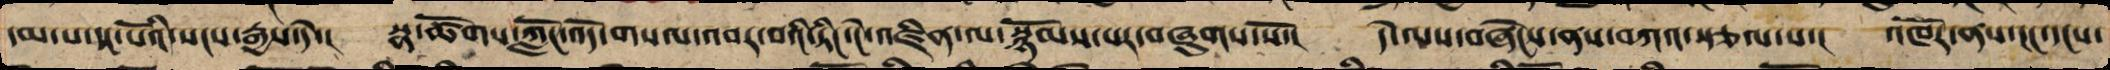དམ་པ་དང་པོའི་སངས་རྒྱས་དེ་། སྣ་ཚོགས་ཀློང་འོད་གསལ་འབར་བའི་ཏིང་ངེ་འཛིན་ལ་སྙོམས་པར་བཞུགས་སོ་། དེ་ལས་བཞེངས་ནས་བཀའ་སྩལ་པ་། འཁོར་ནས་ངང་དངས་
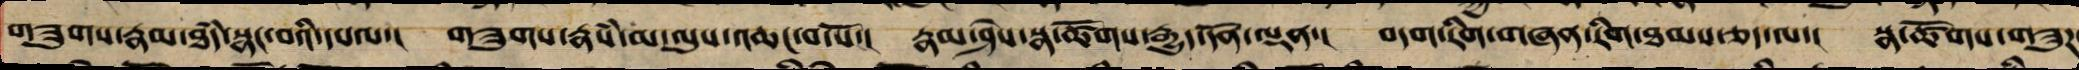གཟུགས་རྣམ་ཐཾས་སྣང་བའི་དཔལ་། གཟུགས་རྣཾས་མ་ལུས་འཆང་བ་པོ་། རྣམ་ཤེས་སྣ་ཚོགས་རྒྱུད་དོན་ལྡན་། བདག་རིག་གཞན་རིག་ཐམས་ཅད་ལ་། སྣ་ཚོགས་གཟུཌ
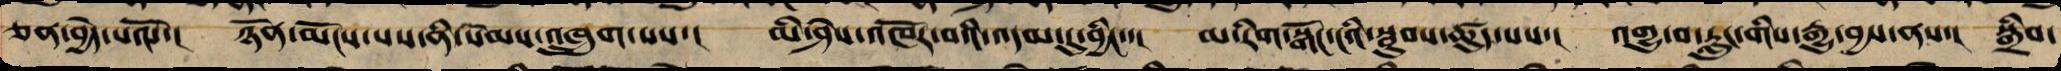ཅན་བྱེད་པའོ་་། ཉོན་མོངས་པས་ནི་སེམས་འཁྲུགས་པས་། མི་ཤེས་འཁོར་བའི་འདམ་དུ་བྱིང་་། མ་རིག་སྒོང་ངའི་སྦུབས་ཚུད་པས་། འགྱུ་བ་རླུང་གིས་རྒྱུ་བྱས་ནས་། སྒྲིབ་
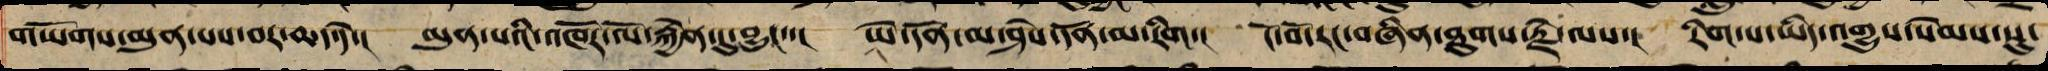གཡོགས་མུན་པས་བར་ཆད་དེ་། མུན་པའི་འཁོར་ལོ་རྐྱེན་དུ་བྱུང་་། ཡེ་དོན་མ་ཤེས་དོན་མ་རིག་། ངོ་བོ་རང་བཞིན་ཐུགས་རྗེ་ལས་། རིག་པ་ཡིད་འགྱུས་སེམས་སུ་
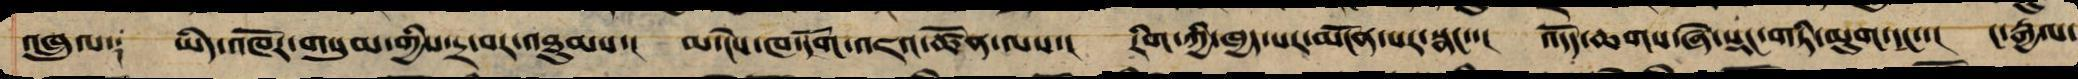འཁྲུལ༑ ཡིད་འཁོར་གསུམ་གྱིས་དྲ་བར་འཐུམས་། མ་ངེས་ཁ་དོག་འཇའ་ཚོན་ལས་། རིགས་ཀྱི་ཁྱད་པར་མངོན་པར་སྣང་་། འདོད་ཆགས་ཞེ་སྡང་གཏི་མུག་དང་་། ང་རྒྱལ་
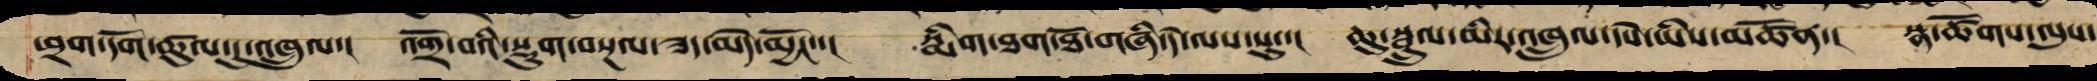ཕྲག་དོག་ཚུལ་དུ་འཁྲུལ་། འགྲོ་བའི་སྡུག་བསྔལ་ཟད་མེད་མྱོང་་། སྨིག་ཐག་ཐོ་གཞི་དེ་ལས་སུ་་། ཆུ་སྦྲུལ་མིར་འཁྲུལ་དཔེ་ཡིས་མཚོན་། སྣ་ཚོགས་ལུས་
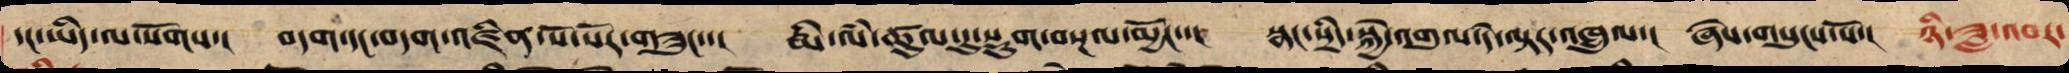དང་ཡིད་ལ་སོགས་། བདག་དང་བདག་འཛིན་སོ་སོར་གཟུང་་། རྨི་ལམ་ཚུལ་དུ་སྡུག་བསྔལ་མྱོང་་། སྣང་སྲིད་སྐྱེ་འགུལ་དེ་ལྟར་འཁྲུལ་། ཞེས་གསུངས་སོ་། ཉི་ཟླ་འབར་
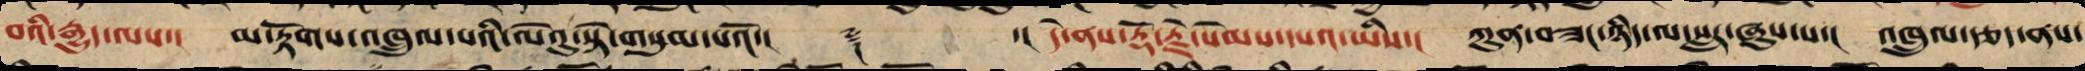བའི་རྒྱུད་ལས་། མ་རྟོགས་འཁྲུལ་པའི་ལེའུ་སྟེ་གསུམ་པའོ་།། ༈ ་། དེ་ནས་རྡོ་རྗེ་སེམས་དཔའ་ཡིས་། ཀུན་བཟང་ཉིད་ལ་སླར་ཞུས་པ་། འཁྲུལ་རྩད་ནས་
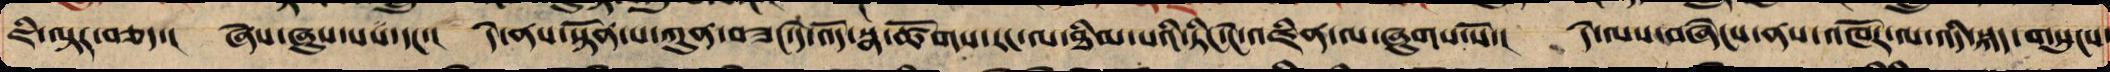ཇི་ལྟར་བཅད་། ཞེས་ཞུས་པས་དང་། དེ་ནས་སྟོན་པ་ཀུན་བཟང་དེ་འོད་སྣ་ཚོགས་རང་ལ་ཐིམ་པའི་ཏིང་ངེ་འཛིན་ལ་ཞུགས་སོ་། དེ་ལས་བཞེངས་ནས་འཁོར་ལ་འདི་སྐད་གསུངས་
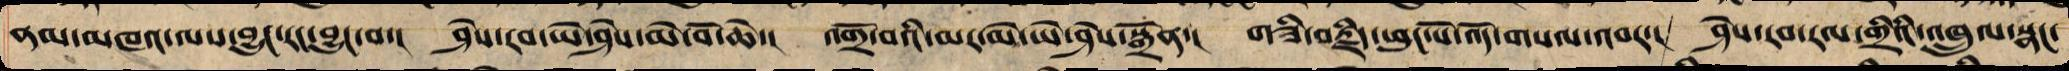ནམ་མཁའ་ལས་བྱུང་རང་བྱུང་བ་། ཤེས་རབ་ཡེ་ཤེས་མི་བོ་ཆེ་། འགྲོ་བའི་མར་མེ་ཡེ་ཤེས་སྒྲོན་། གཟི་བརྗིད་ཕུང་པོ་འོད་གསལ་འབར་། ཤེས་རབ་རལ་གྲིའི་འཁྲུལ་སྣང་
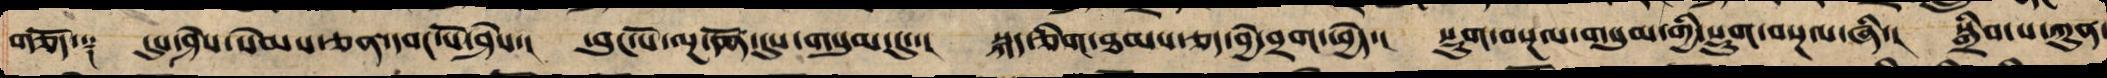གཅོད། །ངུས་ཤེས་སེམས་ཅན་དབང་པོ་ཤེས། །ཕུང་པོ་ལྔ་པོ་དུས་གསུམ་དུ། །སྐད་ཅིག་ཐམས་ཅད་བྱེ་བྲག་ཕྱེད། །སྡུག་བསྔལ་གསུམ་གྱི་སྡུག་བསྔལ་ཞི། །སྒྲིབ་པ་ཀུན་
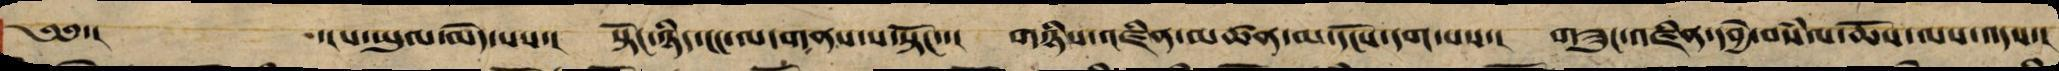༄༅་། ་།པ་ཡུལ་མེད་པས་། སྟོང་ཉིད་ངང་ལ་གནས་པ་སྟོང་་། གཉིས་འཛིན་མཚན་མ་དངོས་དག་པས་། གཟུང་འཛིན་དབྱེ་བསᨑཔ་པ་ཆོས་ལས་འདས་།
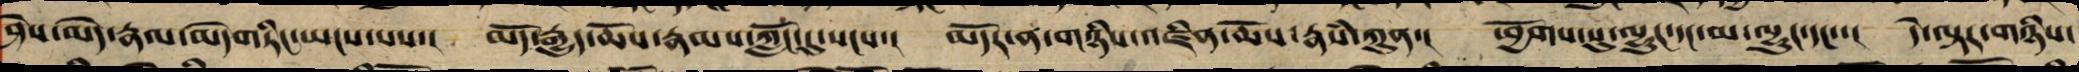ཤེས་མེད་རྣལ་མེད་གཏིང་ཡངས་པས་། མདོ་རྒྱུད་ཆོས་རྣམས་ཀློང་དུ་སངས་། མདོར་ན་གཉིས་འཛིན་ཆོས་རྣཾས་ཀུན་། ཕྱོགས་སུ་ལྷུང་དང་མ་ལྷུང་དང་་། དེ་ལྟར་གཉིས་
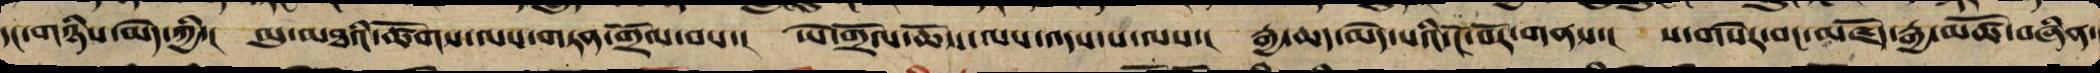དང་གཉིས་མེད་ཀྱི་། མུ་མཐའི་ཚོགས་ལས་གཏན་གྲོལ་བས་། ཡེ་གྲོལ་ཆོས་ལས་འདས་པ་ལས་། རྒྱ་ཆད་མེད་པའི་ངོ་བོར་གནས་། ས་གསེར་བང་མཛོད་རྒྱ་མཚོ་བཞིན་
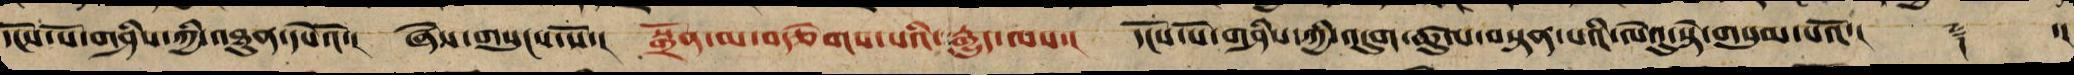དངོས་པོ་གཤིས་ཀྱི་འཐུན་དཔེའོ་། ཞེས་གསུངས་སོ་། སྒྲོན་མ་བརྩེགས་པའི་རྒྱུད་ལས་། དངོས་པོ་གཤིས་ཀྱི་འདུག་ཚུལ་བསྟན་པའི་ལེའུ་སྟེ་གསུམ་པའོ་།། ༈ ་།
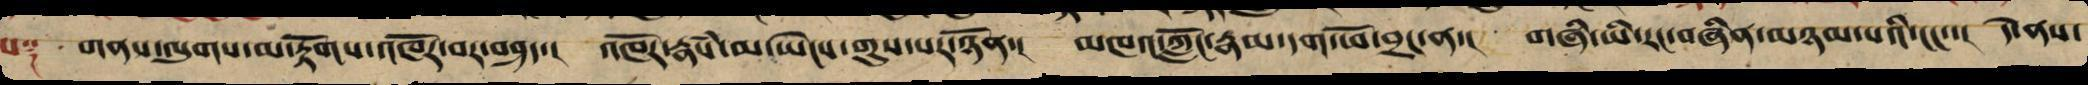པ༑ གནས་ལུགས་མ་རྟོགས་འཁོར་བར་བཤད་། འཁོར་རྣཾས་མ་ཡེངས་གུས་པར་ཉོན་། མཁའ་ཀློང་རྣམ་དག་ཕོ་བྲང་ན་། གཞི་ཡི་རང་བཞིན་མཉམ་པའི་ངང་་། དེ་ནས་
